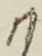༡
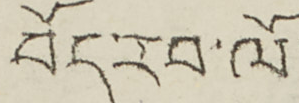བོད་རབ་ལོ
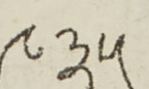༩༣༥
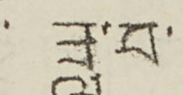ཟླ་བ་
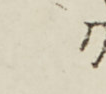༡-༢
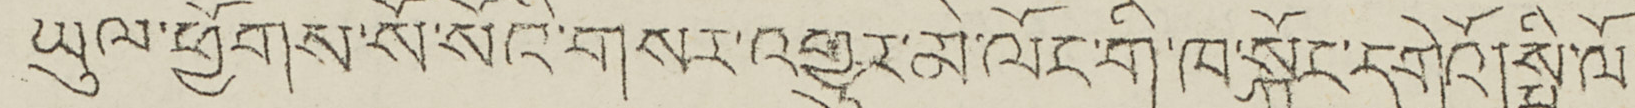ཡུལ་ཕྱོགས་སོ་སོའི་གསར་འགྱུར་མེ་ལོང་གི་ཁ་སྐོར་དགེའོ། སྤྱི་ལོ་
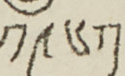༡༩༦༡
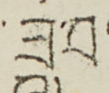ཟླ་བ་
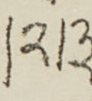༢/༣
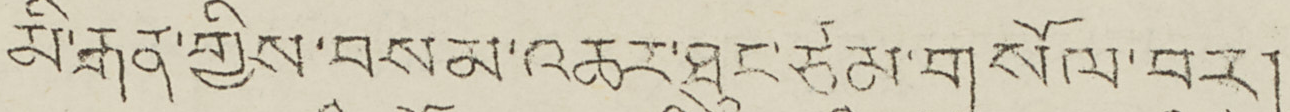མི་རྒན་གྱིས་བསམ་འཆར་ཐུང་ཙམ་གསོལ་བར།
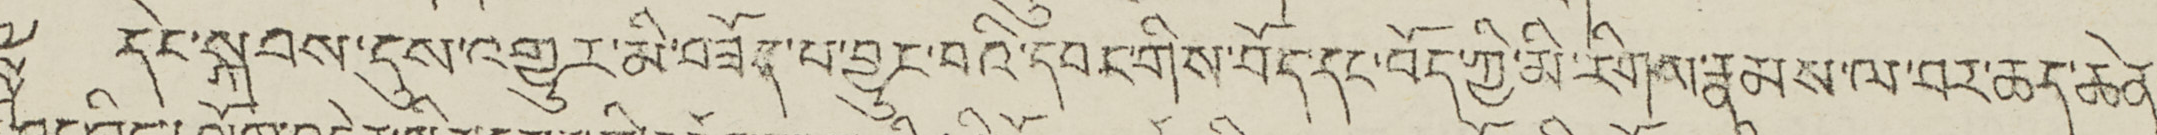༈ དེང་སྐབས་དུས་འགྱུར་མི་བཟོད་པ་བྱུང་བའི་དབང་གིས་བོད་ཀྱི་རིགས་རྣམས་ལ་བར་ཆད་ཆེན་
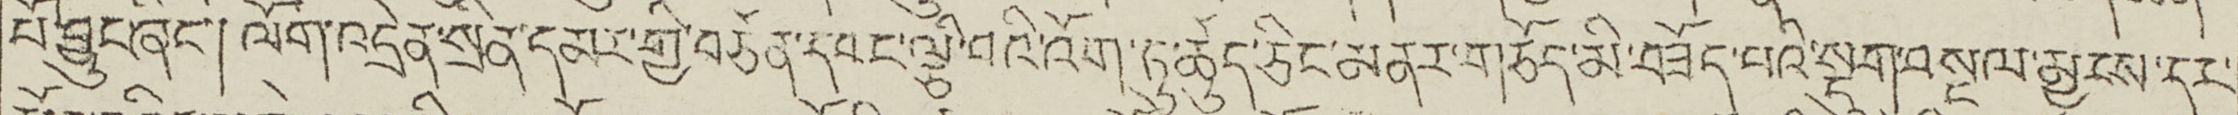པོ་བྱུང་ཞིང་། ལོག་འདྲེན་སྲིན་དམར་གྱི་བཙན་དབང་ལྕི་བའི་འོག་ཏུ་ཚུད་ཅིང་མནར་གཅོད་མི་བཟོད་པའི་སྡུག་བསྔལ་མྱངས་དར་
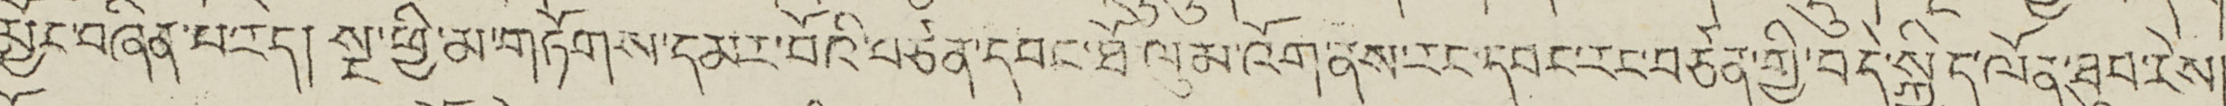མྱོང་བཞིན་པ་རེད། སྔ་ཕྱི་མ་གཏོགས་དམར་པོའི་བཙན་དབང་ཐོ ལུམ་འོག་ནས་རང་དབང་རང་བཙན་གྱི་བདེ་སྐྱིད་ལོན་ཐུབ་རེས་
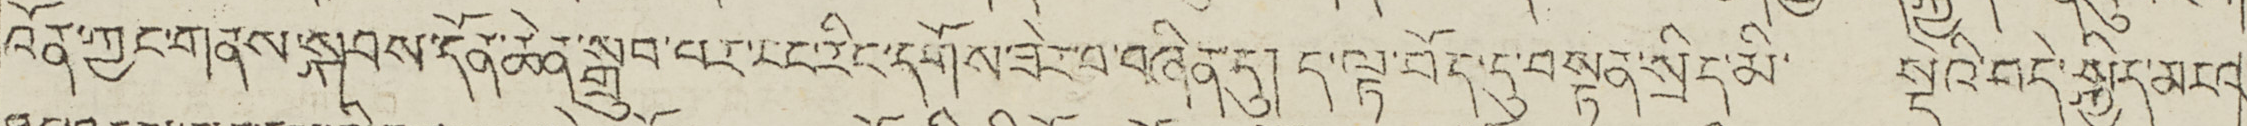འོན་ཀྱང་གནས་སྐབས་དོན་ཆེན་སྒྲུབ་པར་ངང་རིང་དགོས་ཟེར་བ་བཞིན་དུ། ད་ལྟ་བོད་དུ་བསྟན་སྲིད་མི་ སྡེའི་བདེ་སྐྱིད་མངའ་
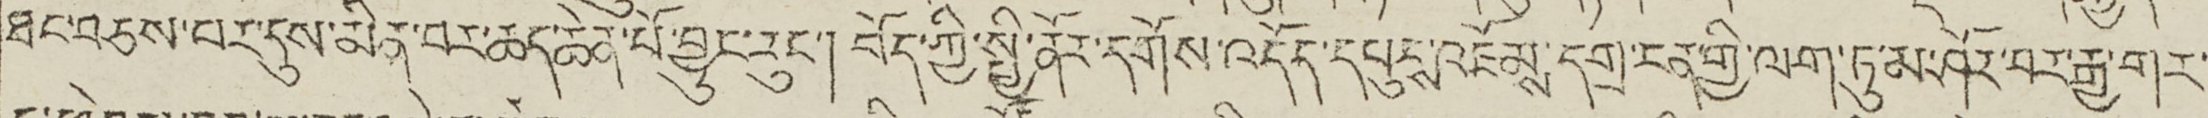ཐང་བཅས་པར་དུས་མིན་བར་ཆད་ཆེན་པོ་བྱུང་རུང་། བོད་ཀྱི་སྤྱི་ནོར་དགོས་འདོད་དཔུངས་འཇོམས་དགྲ་ངན་གྱི་ལག་ཏུ་མ་ཤོར་བར་རྒྱ་གར་
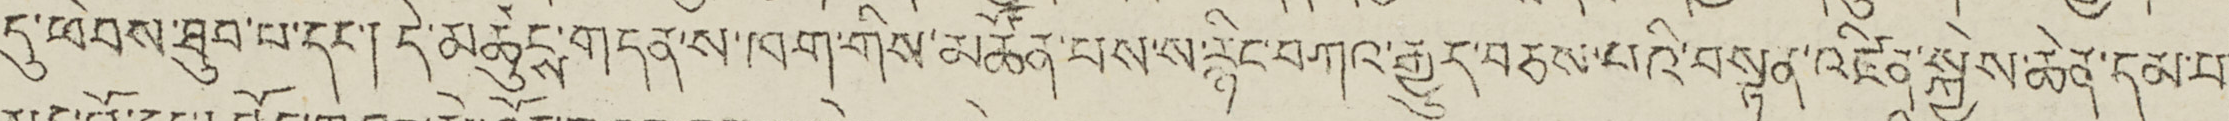དུ་ཕེབས་ཐུབ་པ་དང་། དེ་མཚུངས་གདན་ས་ཁག་གིས་མཚོན་པས་ས་རྙིང་བཀའ་རྒྱུར་བཅས་པའི་བསྟན་འཛིན་སྐྱེས་ཆེན་དམ་པ་
